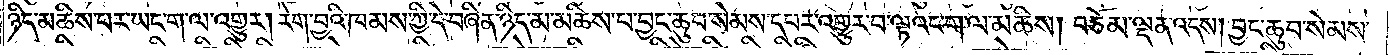ཉིད་མཆིས་པར་ཡང་ག་ལ་འགྱུར། རེག་བྱའི་ཁམས་ཀྱི་དེ་བཞིན་ཉིད་མ་མཆིས་པ་བྱང་ཆུབ་སེམས་དཔར་འགྱུར་བ་ལྟའང་ག་ལ་མཆིས། བཅོམ་ལྡན་འདས། བྱང་ཆུབ་སེམས་
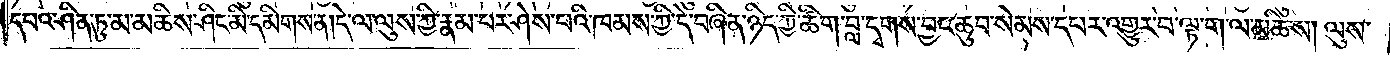དཔའ་ཤིན་ཏུ་མ་མཆིས་ཤིང་མི་དམིགས་ན། དེ་ལ་ལུས་ཀྱི་རྣམ་པར་ཤེས་པའི་ཁམས་ཀྱི་དེ་བཞིན་ཉིད་ཀྱི་ཚིག་བླ་དྭགས་བྱང་ཆུབ་སེམས་དཔར་འགྱུར་བ་ལྟ་ག་ལ་མཆིས། ལུས་
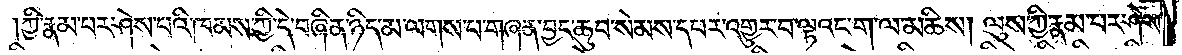ཀྱི་རྣམ་པར་ཤེས་པའི་ཁམས་ཀྱི་དེ་བཞིན་ཉིད་མ་ལགས་པ་གཞན་བྱང་ཆུབ་སེམས་དཔར་འགྱུར་བ་ལྟའང་ག་ལ་མཆིས། ལུས་ཀྱི་རྣམ་པར་ཤེས་
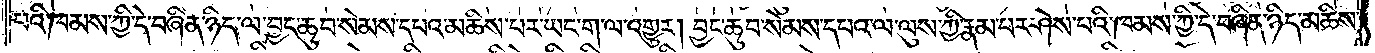པའི་ཁམས་ཀྱི་དེ་བཞིན་ཉིད་ལ་བྱང་ཆུབ་སེམས་དཔའ་མཆིས་པར་ཡང་ག་ལ་འགྱུར། བྱང་ཆུབ་སེམས་དཔའ་ལ་ལུས་ཀྱི་རྣམ་པར་ཤེས་པའི་ཁམས་ཀྱི་དེ་བཞིན་ཉིད་མཆིས་
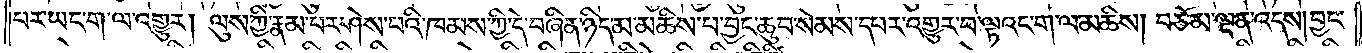པར་ཡང་ག་ལ་འགྱུར། ལུས་ཀྱི་རྣམ་པར་ཤེས་པའི་ཁམས་ཀྱི་དེ་བཞིན་ཉིད་མ་མཆིས་པ་བྱང་ཆུབ་སེམས་དཔར་འགྱུར་བ་ལྟའང་ག་ལ་མཆིས། བཅོམ་ལྡན་འདས། བྱང་
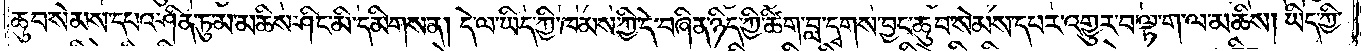ཆུབ་སེམས་དཔའ་ཤིན་ཏུ་མ་མཆིས་ཤིང་མི་དམིགས་ན། དེ་ལ་ཡིད་ཀྱི་ཁམས་ཀྱི་དེ་བཞིན་ཉིད་ཀྱི་ཚིག་བླ་དྭགས་བྱང་ཆུབ་སེམས་དཔར་འགྱུར་བ་ལྟ་ག་ལ་མཆིས། ཡིད་ཀྱི་
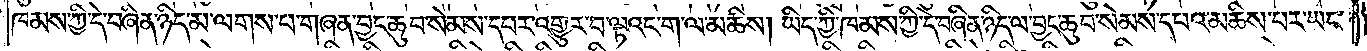ཁམས་ཀྱི་དེ་བཞིན་ཉིད་མ་ལགས་པ་གཞན་བྱང་ཆུབ་སེམས་དཔར་འགྱུར་བ་ལྟའང་ག་ལ་མཆིས། ཡིད་ཀྱི་ཁམས་ཀྱི་དེ་བཞིན་ཉིད་ལ་བྱང་ཆུབ་སེམས་དཔའ་མཆིས་པར་ཡང་
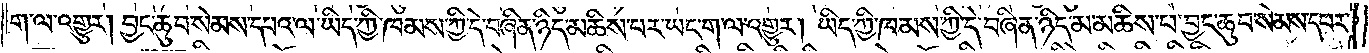ག་ལ་འགྱུར། བྱང་ཆུབ་སེམས་དཔའ་ལ་ཡིད་ཀྱི་ཁམས་ཀྱི་དེ་བཞིན་ཉིད་མཆིས་པར་ཡང་ག་ལ་འགྱུར། ཡིད་ཀྱི་ཁམས་ཀྱི་དེ་བཞིན་ཉིད་མ་མཆིས་པ་བྱང་ཆུབ་སེམས་དཔར་
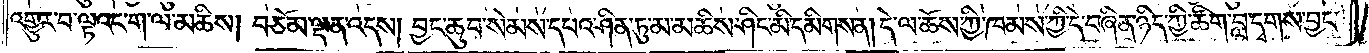འགྱུར་བ་ལྟའང་ག་ལ་མཆིས། བཅོམ་ལྡན་འདས། བྱང་ཆུབ་སེམས་དཔའ་ཤིན་ཏུ་མ་མཆིས་ཤིང་མི་དམིགས་ན། དེ་ལ་ཆོས་ཀྱི་ཁམས་ཀྱི་དེ་བཞིན་ཉིད་ཀྱི་ཚིག་བླ་དྭགས་བྱང་
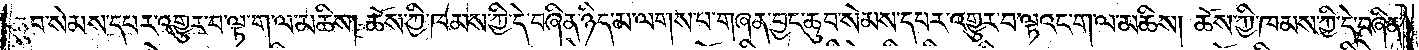ཆུབ་སེམས་དཔར་འགྱུར་བ་ལྟ་ག་ལ་མཆིས། ཆོས་ཀྱི་ཁམས་ཀྱི་དེ་བཞིན་ཉིད་མ་ལགས་པ་གཞན་བྱང་ཆུབ་སེམས་དཔར་འགྱུར་བ་ལྟའང་ག་ལ་མཆིས། ཆོས་ཀྱི་ཁམས་ཀྱི་དེ་བཞིན་
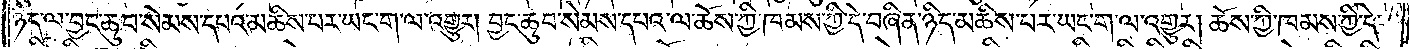ཉིད་ལ་བྱང་ཆུབ་སེམས་དཔའ་མཆིས་པར་ཡང་ག་ལ་འགྱུར། བྱང་ཆུབ་སེམས་དཔའ་ལ་ཆོས་ཀྱི་ཁམས་ཀྱི་དེ་བཞིན་ཉིད་མཆིས་པར་ཡང་ག་ལ་འགྱུར། ཆོས་ཀྱི་ཁམས་ཀྱི་དེ་
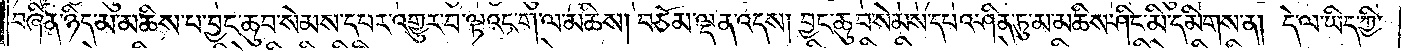བཞིན་ཉིད་མ་མཆིས་པ་བྱང་ཆུབ་སེམས་དཔར་འགྱུར་བ་ལྟའང་ག་ལ་མཆིས། བཅོམ་ལྡན་འདས། བྱང་ཆུབ་སེམས་དཔའ་ཤིན་ཏུ་མ་མཆིས་ཤིང་མི་དམིགས་ན། དེ་ལ་ཡིད་ཀྱི་
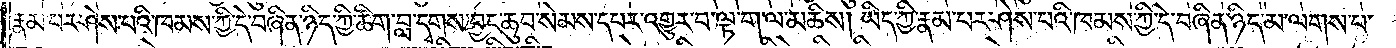རྣམ་པར་ཤེས་པའི་ཁམས་ཀྱི་དེ་བཞིན་ཉིད་ཀྱི་ཚིག་བླ་དྭགས་བྱང་ཆུབ་སེམས་དཔར་འགྱུར་བ་ལྟ་ག་ལ་མཆིས། ཡིད་ཀྱི་རྣམ་པར་ཤེས་པའི་ཁམས་ཀྱི་དེ་བཞིན་ཉིད་མ་ལགས་པ་
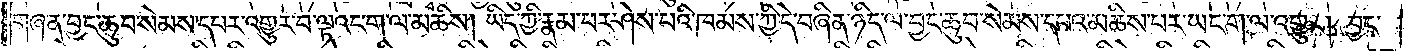གཞན་བྱང་ཆུབ་སེམས་དཔར་འགྱུར་བ་ལྟའང་ག་ལ་མཆིས། ཡིད་ཀྱི་རྣམ་པར་ཤེས་པའི་ཁམས་ཀྱི་དེ་བཞིན་ཉིད་ལ་བྱང་ཆུབ་སེམས་དཔའ་མཆིས་པར་ཡང་ག་ལ་འགྱུར། བྱང་
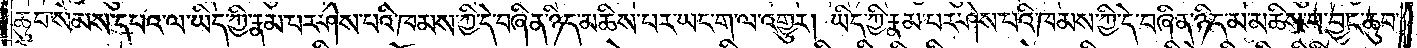ཆུབ་སེམས་དཔའ་ལ་ཡིད་ཀྱི་རྣམ་པར་ཤེས་པའི་ཁམས་ཀྱི་དེ་བཞིན་ཉིད་མཆིས་པར་ཡང་ག་ལ་འགྱུར། ཡིད་ཀྱི་རྣམ་པར་ཤེས་པའི་ཁམས་ཀྱི་དེ་བཞིན་ཉིད་མ་མཆིས་པ་བྱང་ཆུབ་
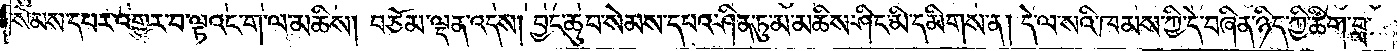སེམས་དཔར་འགྱུར་བ་ལྟའང་ག་ལ་མཆིས། བཅོམ་ལྡན་འདས། བྱང་ཆུབ་སེམས་དཔའ་ཤིན་ཏུ་མ་མཆིས་ཤིང་མི་དམིགས་ན། དེ་ལ་སའི་ཁམས་ཀྱི་དེ་བཞིན་ཉིད་ཀྱི་ཚིག་བླ་
